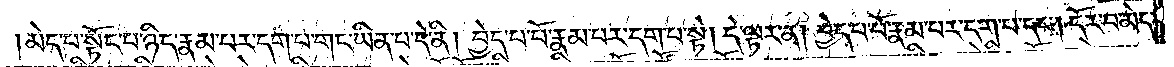མེད་པ་སྟོང་པ་ཉིད་རྣམ་པར་དག་པ་གང་ཡིན་པ་དེ་ནི། བྱེད་པ་པོ་རྣམ་པར་དག་པ་སྟེ། དེ་ལྟར་ན། བྱེད་པ་པོ་རྣམ་པར་དག་པ་དང༌། དོར་བ་མེད་
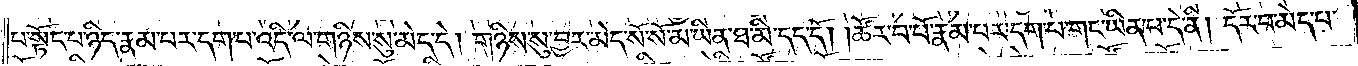པ་སྟོང་པ་ཉིད་རྣམ་པར་དག་པ་འདི་ལ་གཉིས་སུ་མེད་དེ། གཉིས་སུ་བྱར་མེད་སོ་སོ་མ་ཡིན་ཐ་མི་དད་དོ། །ཚོར་བ་པོ་རྣམ་པར་དག་པ་གང་ཡིན་པ་དེ་ནི། དོར་བ་མེད་པ་
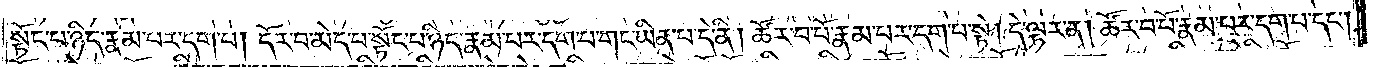སྟོང་པ་ཉིད་རྣམ་པར་དག་པ། དོར་བ་མེད་པ་སྟོང་པ་ཉིད་རྣམ་པར་དག་པ་གང་ཡིན་པ་དེ་ནི། ཚོར་བ་པོ་རྣམ་པར་དག་པ་སྟེ། དེ་ལྟར་ན། ཚོར་བ་པོ་རྣམ་པར་དག་པ་དང༌།
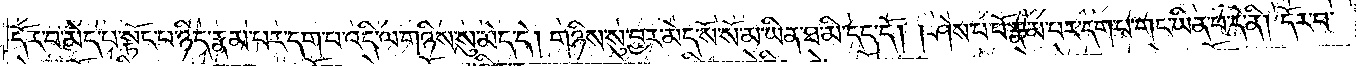དོར་བ་མེད་པ་སྟོང་པ་ཉིད་རྣམ་པར་དག་པ་འདི་ལ་གཉིས་སུ་མེད་དེ། གཉིས་སུ་བྱར་མེད་སོ་སོ་མ་ཡིན་ཐ་མི་དད་དོ། །ཤེས་པ་པོ་རྣམ་པར་དག་པ་གང་ཡིན་པ་དེ་ནི། དོར་བ་
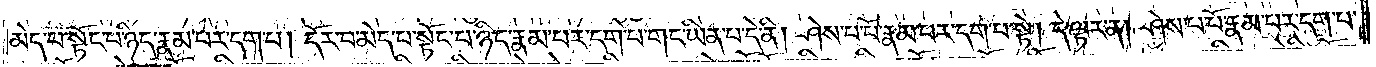མེད་པ་སྟོང་པ་ཉིད་རྣམ་པར་དག་པ། དོར་བ་མེད་པ་སྟོང་པ་ཉིད་རྣམ་པར་དག་པ་གང་ཡིན་པ་དེ་ནི། ཤེས་པ་པོ་རྣམ་པར་དག་པ་སྟེ། དེ་ལྟར་ན། ཤེས་པ་པོ་རྣམ་པར་དག་པ་
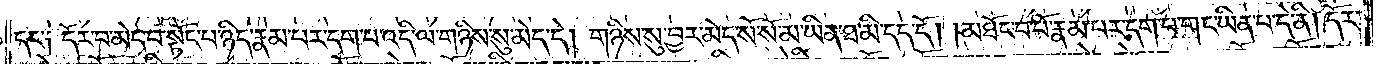དང༌། དོར་བ་མེད་པ་སྟོང་པ་ཉིད་རྣམ་པར་དག་པ་འདི་ལ་གཉིས་སུ་མེད་དེ། གཉིས་སུ་བྱར་མེད་སོ་སོ་མ་ཡིན་ཐ་མི་དད་དོ། །མཐོང་བ་པོ་རྣམ་པར་དག་པ་གང་ཡིན་པ་དེ་ནི། དོར་
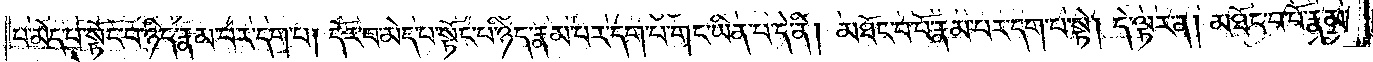བ་མེད་པ་སྟོང་པ་ཉིད་རྣམ་པར་དག་པ། དོར་བ་མེད་པ་སྟོང་པ་ཉིད་རྣམ་པར་དག་པ་གང་ཡིན་པ་དེ་ནི། མཐོང་བ་པོ་རྣམ་པར་དག་པ་སྟེ། དེ་ལྟར་ན། མཐོང་བ་པོ་རྣམ་
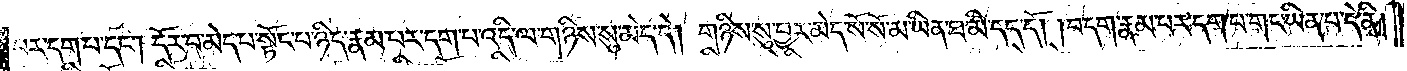པར་དག་པ་དང༌། དོར་བ་མེད་པ་སྟོང་པ་ཉིད་རྣམ་པར་དག་པ་འདི་ལ་གཉིས་སུ་མེད་དེ། གཉིས་སུ་བྱར་མེད་སོ་སོ་མ་ཡིན་ཐ་མི་དད་དོ། །བདག་རྣམ་པར་དག་པ་གང་ཡིན་པ་དེ་ནི།
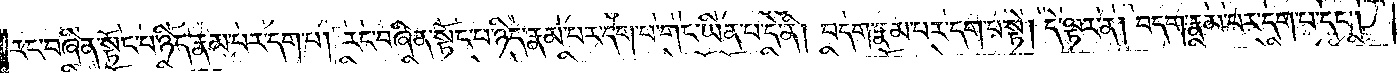རང་བཞིན་སྟོང་པ་ཉིད་རྣམ་པར་དག་པ། རང་བཞིན་སྟོང་པ་ཉིད་རྣམ་པར་དག་པ་གང་ཡིན་པ་དེ་ནི། བདག་རྣམ་པར་དག་པ་སྟེ། དེ་ལྟར་ན། བདག་རྣམ་པར་དག་པ་དང༌།
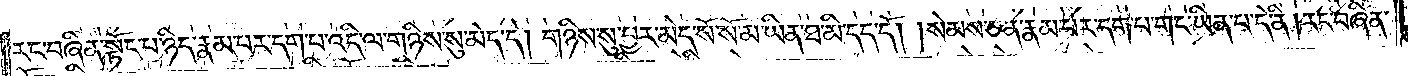རང་བཞིན་སྟོང་པ་ཉིད་རྣམ་པར་དག་པ་འདི་ལ་གཉིས་སུ་མེད་དེ། གཉིས་སུ་བྱར་མེད་སོ་སོ་མ་ཡིན་ཐ་མི་དད་དོ། །སེམས་ཅན་རྣམ་པར་དག་པ་གང་ཡིན་པ་དེ་ནི། རང་བཞིན་
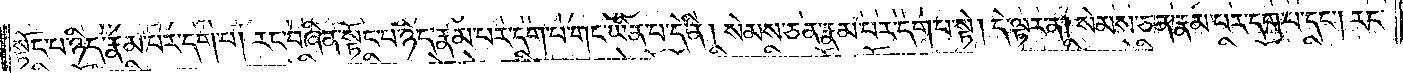སྟོང་པ་ཉིད་རྣམ་པར་དག་པ། རང་བཞིན་སྟོང་པ་ཉིད་རྣམ་པར་དག་པ་གང་ཡིན་པ་དེ་ནི། སེམས་ཅན་རྣམ་པར་དག་པ་སྟེ། དེ་ལྟར་ན། སེམས་ཅན་རྣམ་པར་དག་པ་དང༌། རང་
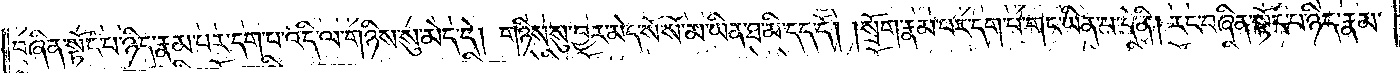བཞིན་སྟོང་པ་ཉིད་རྣམ་པར་དག་པ་འདི་ལ་གཉིས་སུ་མེད་དེ། གཉིས་སུ་བྱར་མེད་སོ་སོ་མ་ཡིན་ཐ་མི་དད་དོ། །སྲོག་རྣམ་པར་དག་པ་གང་ཡིན་པ་དེ་ནི། རང་བཞིན་སྟོང་པ་ཉིད་རྣམ་
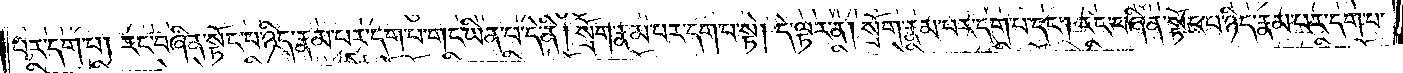པར་དག་པ། རང་བཞིན་སྟོང་པ་ཉིད་རྣམ་པར་དག་པ་གང་ཡིན་པ་དེ་ནི། སྲོག་རྣམ་པར་དག་པ་སྟེ། དེ་ལྟར་ན། སྲོག་རྣམ་པར་དག་པ་དང༌། རང་བཞིན་སྟོང་པ་ཉིད་རྣམ་པར་དག་པ་
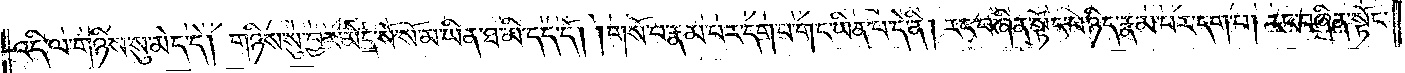འདི་ལ་གཉིས་སུ་མེད་དེ། གཉིས་སུ་བྱར་མེད་སོ་སོ་མ་ཡིན་ཐ་མི་དད་དོ། །གསོ་བ་རྣམ་པར་དག་པ་གང་ཡིན་པ་དེ་ནི། རང་བཞིན་སྟོང་པ་ཉིད་རྣམ་པར་དག་པ། རང་བཞིན་སྟོང་
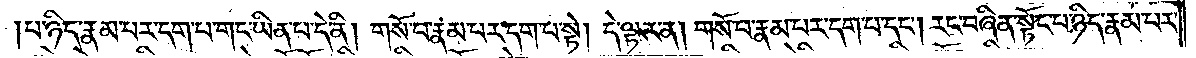པ་ཉིད་རྣམ་པར་དག་པ་གང་ཡིན་པ་དེ་ནི། གསོ་བ་རྣམ་པར་དག་པ་སྟེ། དེ་ལྟར་ན། གསོ་བ་རྣམ་པར་དག་པ་དང༌། རང་བཞིན་སྟོང་པ་ཉིད་རྣམ་པར་
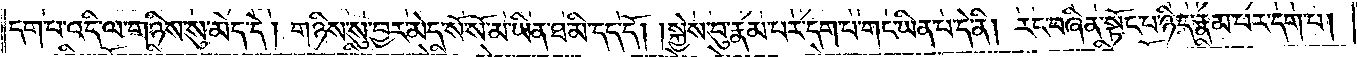དག་པ་འདི་ལ་གཉིས་སུ་མེད་དེ། གཉིས་སུ་བྱར་མེད་སོ་སོ་མ་ཡིན་ཐ་མི་དད་དོ། །སྐྱེས་བུ་རྣམ་པར་དག་པ་གང་ཡིན་པ་དེ་ནི། རང་བཞིན་སྟོང་པ་ཉིད་རྣམ་པར་དག་པ།
